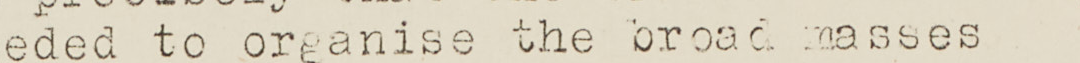in the Taipe area, awaiting the big
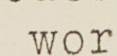day.
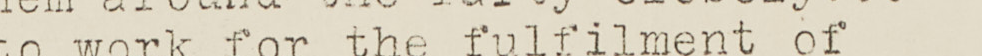Late-model warplanes will fly over
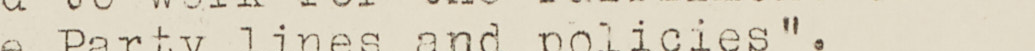head. Vehicles will include tanks
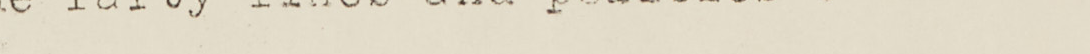received from the United States only
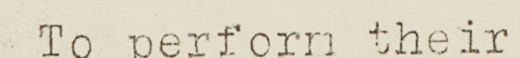a few months ago.
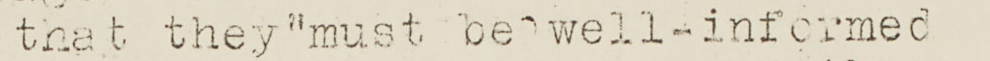Overseas Chinese dignitaries are
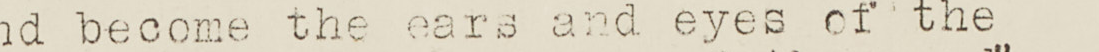arriving daily. The October 10 cere
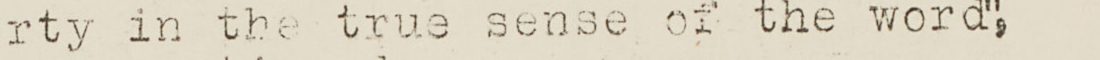monies will mark the 52nd anniversary
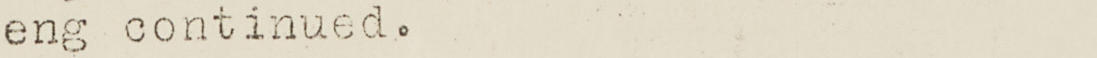of the Republic of China. This years
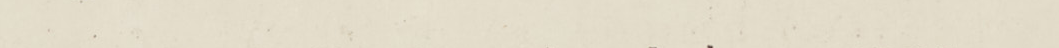observance comes at a time when the
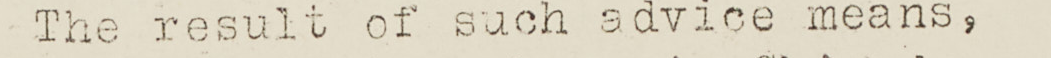Chinese Communist regime is plagued
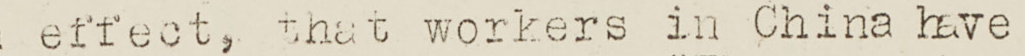with greater internal and external
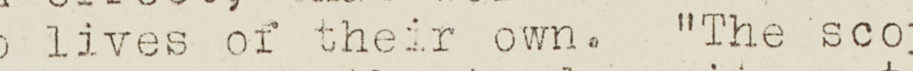difficulties than ever before.
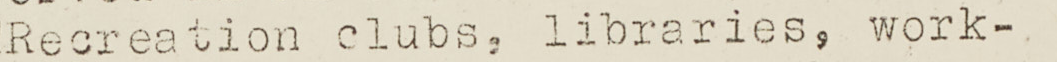PEIPING REGIME LOSES ITS OPTIMISTIC
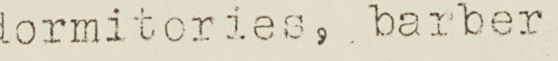VIEW OF THE FUTURE
